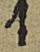4
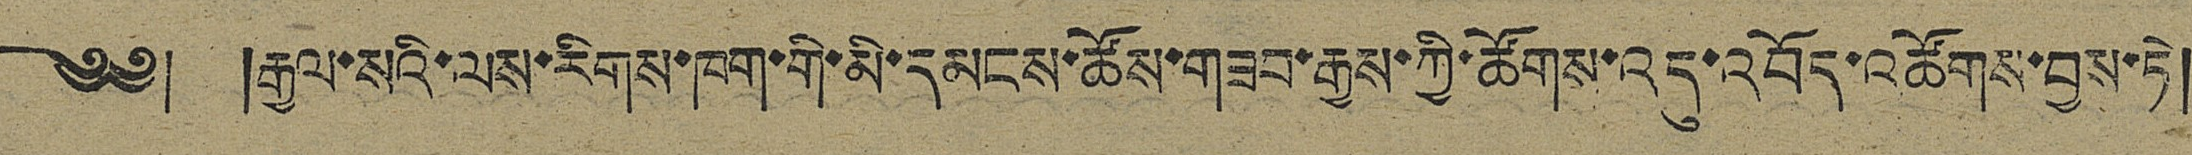༄༅། །རྒྱལ་སའི་ལས་རིགས་ཁག་གི་མི་དམངས་ཚོས་གཟབ་རྒྱས་ཀྱི་ཚོགས་འདུ་འབོད་འཚོགས་བྱས་ཏེ།
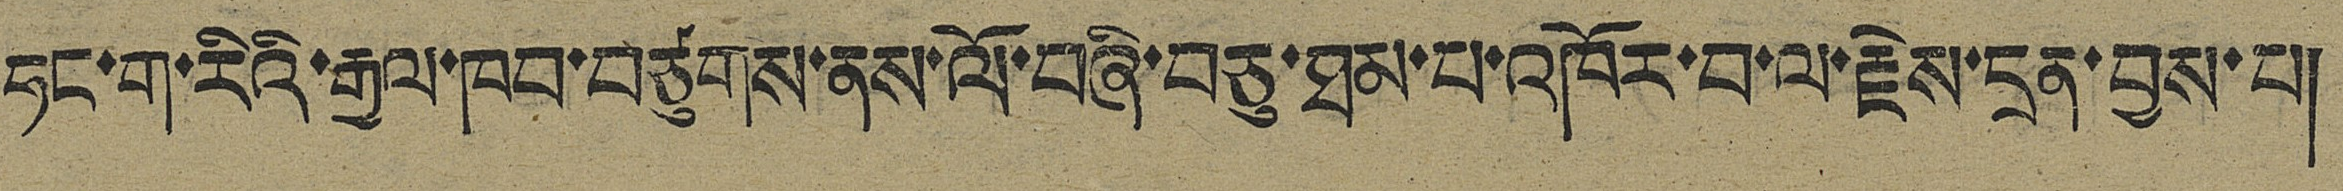ཧང་ག་རིའི་རྒྱལ་ཁབ་བཙུགས་ནས་ལོ་བཞི་བཅུ་ཐམ་པ་འཁོར་བ་ལ་རྗེས་དྲན་བྱས་པ།
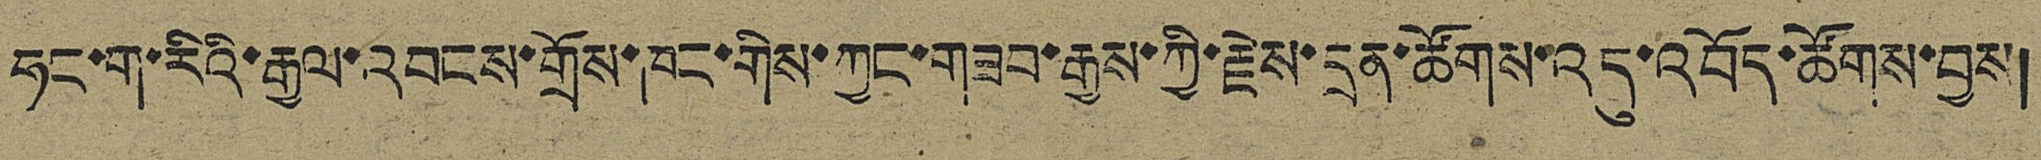ཧང་ག་རིའི་རྒྱལ་འབངས་གྲོས་ཁང་གིས་ཀྱང་གཟབ་རྒྱས་ཀྱི་རྗེས་དྲན་ཚོགས་འདུ་འབོད་ཚོགས་བྱས།
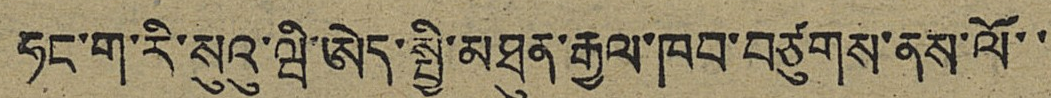ཧང་ག་རི་སུའུ་ཝི་ཨེད་སྤྱི་མཐུན་རྒྱལ་ཁབ་བཙུགས་ནས་ལོ་་
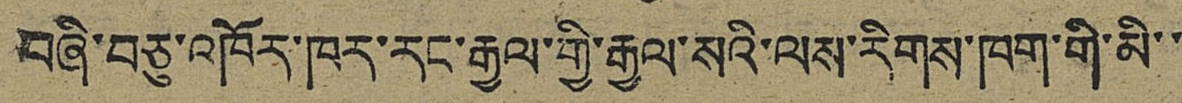བཞི་བཅུ་འཁོར་ཁར་རང་རྒྱལ་གྱི་རྒྱལ་སའི་ལས་རིགས་ཁག་གི་མི་་
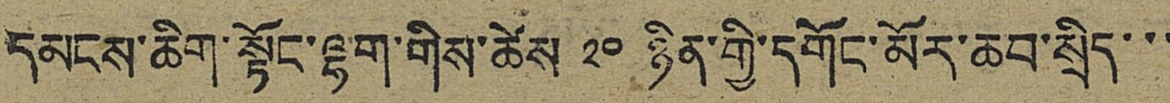དམངས་ཆིག་སྟོང་ལྷག་གིས་ཚེས ༢༠ ཉིན་གྱི་དགོང་མོར་ཆབ་སྲིད་་་
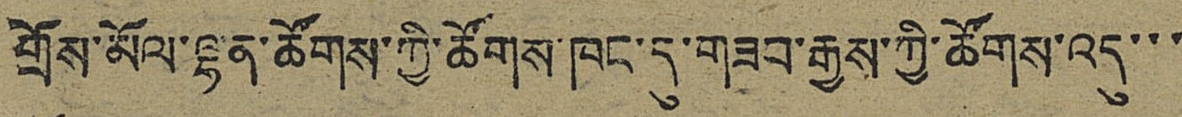གྲོས་མོལ་ལྷན་ཚོགས་ཀྱི་ཚོགས་ཁང་དུ་གཟབ་རྒྱས་ཀྱི་ཚོགས་འདུ་་་
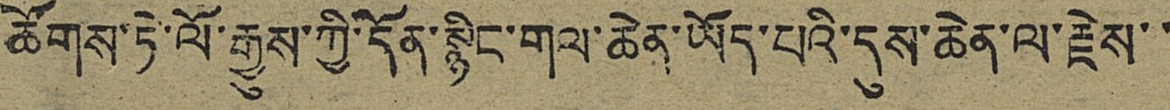ཚོགས་ཏེ་ལོ་རྒྱུས་ཀྱི་དོན་སྙིང་གལ་ཆེན་ཡོད་པའི་དུས་ཆེན་ལ་རྗེས་་
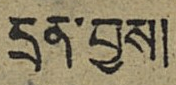དྲན་བྱས།
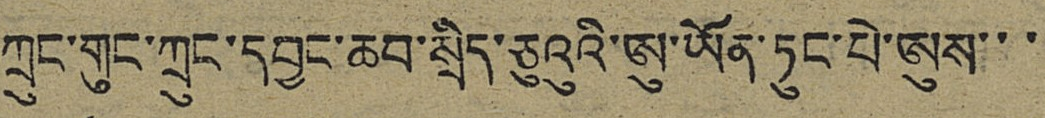ཀྲུང་གུང་ཀྲུང་དབྱང་ཆབ་སྲིད་ཅུའུའི་ཨུ་ཡོན་ཏུང་པེ་ཨུས་་་
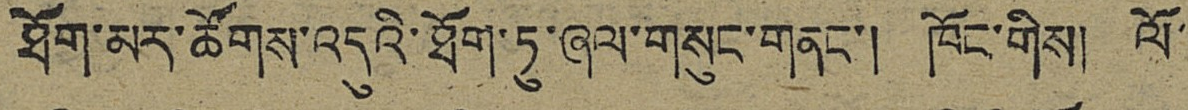ཐོག་མར་ཚོགས་འདུའི་ཐོག་ཏུ་ཞལ་གསུང་གནང་། ཁོང་གིས། ལོ་
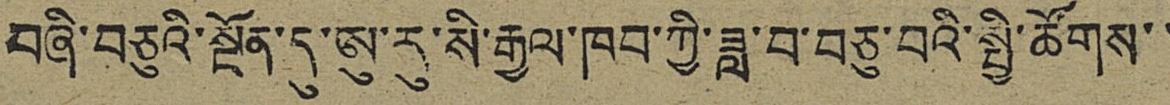བཞི་བཅུའི་སྔོན་དུ་ཨུ་རུ་སི་རྒྱལ་ཁབ་ཀྱི་ཟླ་བ་བཅུ་བའི་སྤྱི་ཚོགས་་
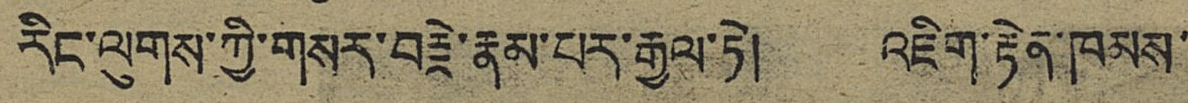རིང་ལུགས་ཀྱི་གསར་བརྗེ་རྣམ་པར་རྒྱལ་ཏེ། འཇིག་རྟེན་ཁམས་
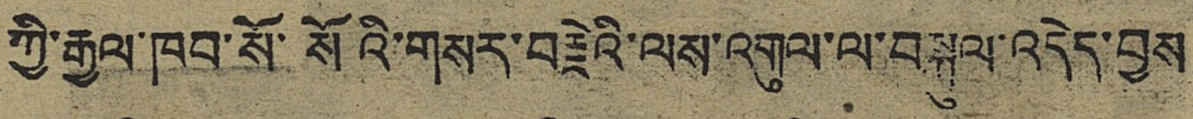ཀྱི་རྒྱལ་ཁབ་སོ་སོའི་གསར་བརྗེའི་ལས་འགུལ་ལ་བསྐུལ་འདེད་བས
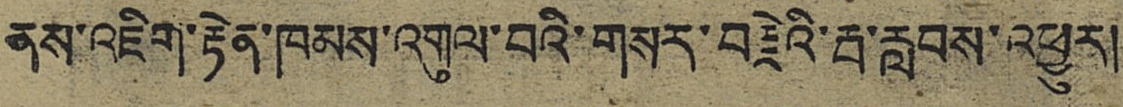ནས་འཇིག་རྟེན་ཁམས་འགུལ་བའི་གསར་བརྗེའི་རྦ་རླབས་འཕྱུར།
